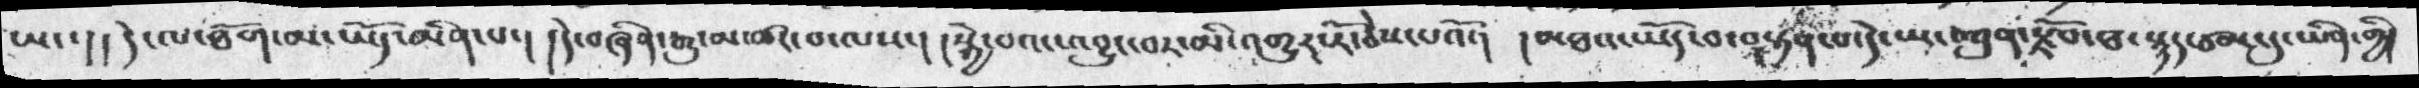ཡང་།། དེ་ལ་ཐོག་མ་ཡོད་མིན་པ་། །དེ་བཞིན་རྒྱུ་མ་ཚང་བ་ལས་། །སྐྱེ་བའང་འབྱུང་བར་མི་འགྱུར་རོ་ཅེས་པའོ་། །མཐའ་ཡོད་བ་བསྟན་པ་དེ་ཡང་ཀུན་རྫོབ་ཐ་སྙད་ཙམ་དུ་ཡིན་གྱི།
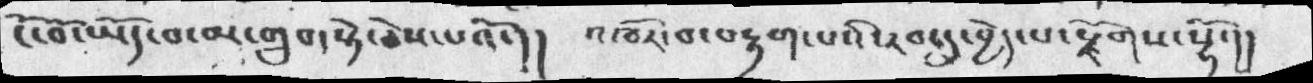ངོ་བོ་ཡོད་བ་མ་གྲུབ་སྟེ་ཅེས་པའོ་།།  འཁོར་བ་བརྟག་པའི་རབ་དུ་བྱེད་པ་རྫོགས་སྷོ་།།
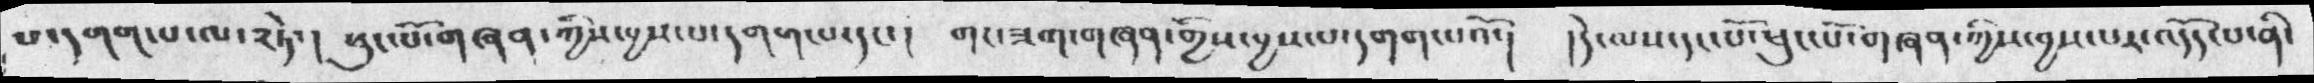པ་དགག་པ་ལ་༢ཏེ་།  ཕུང་པོ་གཞན་ཀྱིས་བྱས་པ་དགག་པ་དང་།  གང་ཟག་གཞན་གྱིས་བྱས་པ་དགག་པའོ་།  །དེ་ལས་དང་པོ་ཕུང་པོ་གཞན་ཀྱིས་བྱས་པར་འདོད་པ་ནི་
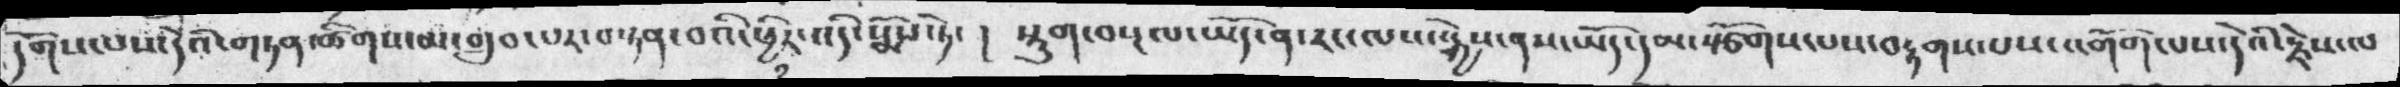དགོས་པས་དེའི་གཏན་ཚིགས་མ་གྲུབ་པར་བསྟན་བའི་ཕྱིར་འདི་སྨོས་ཏེ་ །  སྡུག་བསྔལ་ཡོད་ན་རང་ལས་སྐྱེས་ནས་ཡོད་དམ་སྩོགས་པས་བརྟགས་པས་འགོག་པས་དེའི་རྗེས་ལ
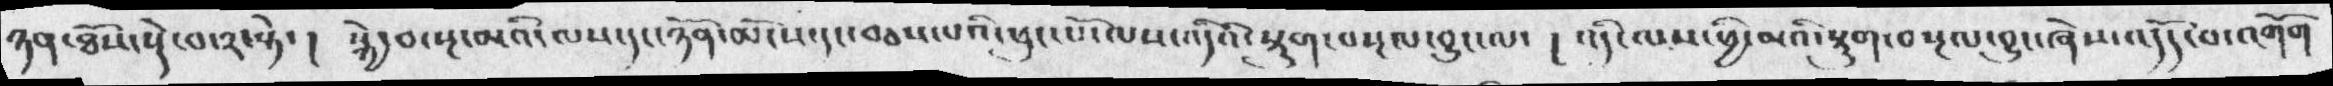ཉན་ཐོས་སྡེ་བ་༢་སྟེ་།  སྐྱེ་བ་སྔ་མའི་ལས་དང་ཉོན་མོངས་དང་བཅས་པའི་ཕུང་པོ་ལས་འདིའི་སྡུག་བསྔལ་བྱུང་ལ་ །  འདི་ལས་ཕྱི་མའི་སྡུག་བསྔལ་བྱུང་ཞེས་འདོད་པ་འགོག
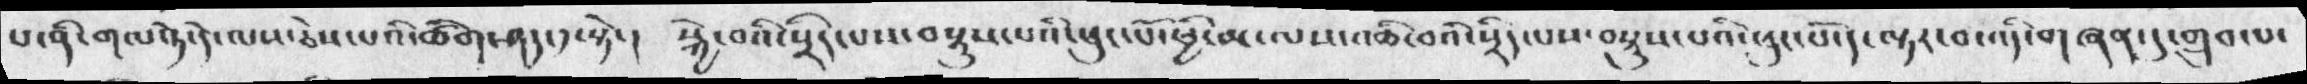པ་ནི་གལ་ཏེ་དེ་ལས་ཅེས་པའི་ཚིག་ཤད་༡་སྟེ་།  སྐྱེ་བའི་སྲིད་པས་བསྟུས་པའི་ཕུང་པོ་ཕྱི་མ་ལས་འཆི་བའི་སྲིད་པས་བསྟུས་པའི་ཕུང་པོ་ད་ལྟར་བ་འདི་གཞན་དུ་གྲུབ་པ་
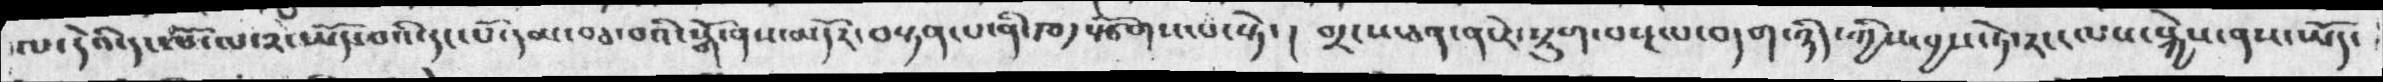ལ་དེའི་དང་པོ་ལ་༢་ཡོད་པའི་དང་པོ་དམ་བཅ་བའི་སྒོ་ནས་མདོར་་བསྟན་པ་ནི་ཁ༡སྩོགས་པ་སྟེ་།  གྲངས་ཅན་ན་རེ་སྡུག་བསྔལ་བདག་ཉིད་ཀྱིས་བྱས་ཏེ་རང་ལས་སྐྱེས་ནས་ཡོད་
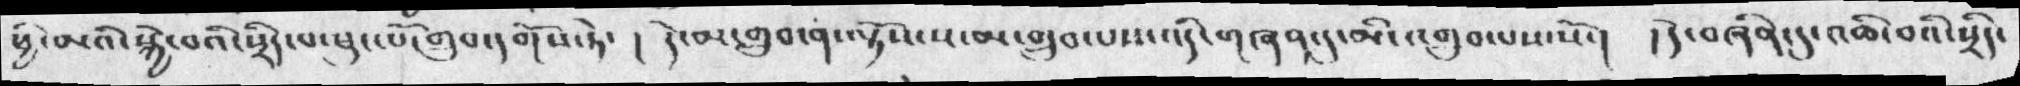ཕྱི་མའི་སྐྱེ་བའི་སྲིད་པ་ཕུང་པོ་གྲུབ་དགོས་ཏེ་ ། དེ་མ་གྲུབ་ན་ལྟོས་ས་མ་གྲུབ་པས་འདི་གཞན་དུ་མི་འགྲུབ་པས་སོ་།  ། དེ་བཞིན་དུ་འཆི་བའི་སྲིད་
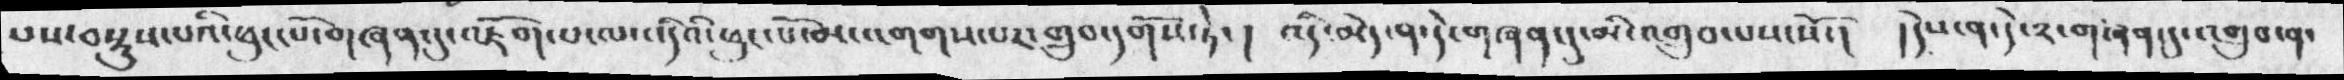པས་བསྡུས་པའི་ཕུང་པོ་གཞན་དུ་འཇོག་པ་ལ་འདིའི་ཕུང་པོ་མ་འགགས་པར་གྲུབ་དགོས་ཏེ་།  འདི་མེད་ན་དེ་གཞན་དུ་མི་འགྲུབ་པས་སོ་།  །དེས་ན་དེ་༢་གཞན་དུ་འགྲུབ་ན་
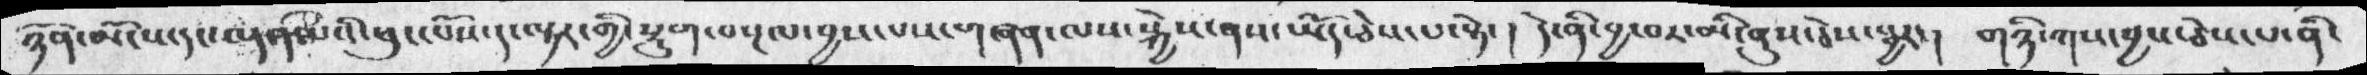ཉོན་མོངས་དང་ལྡན་པའི་ཕུང་པོས་ད་ལྟར་གྱི་སྡུག་བསྔལ་བྱས་པས་གཞན་ལས་སྐྱེས་ནས་ཡོད་ཅེས་པ་སྟེ་།  དེ་ནི་བྱ་བར་མི་ནུས་ཅེས་སྦྱར་།  གཉི་ཀས་བྱས་ཅེས་པ་ནི་
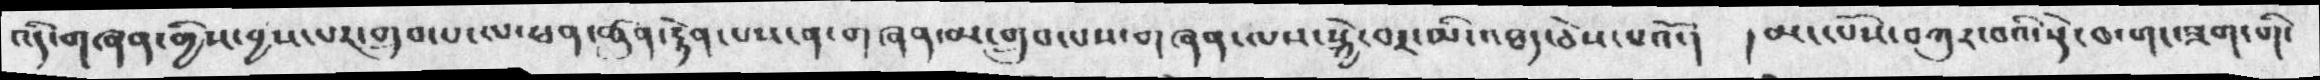འདི་གཞན་གྱིས་བྱས་པར་གྲུབ་པ་ལ་ཕན་ཚུན་རྟེན་པས་ན་གཞན་མ་གྲུབ་པས་གཞཉ་ལས་སྐྱེ་བར་མི་འཐད་ཅེས་པའོ་།  །མང་པོ་བཀུར་བའི་སྡེ་བ་གང་ཟག་གི་
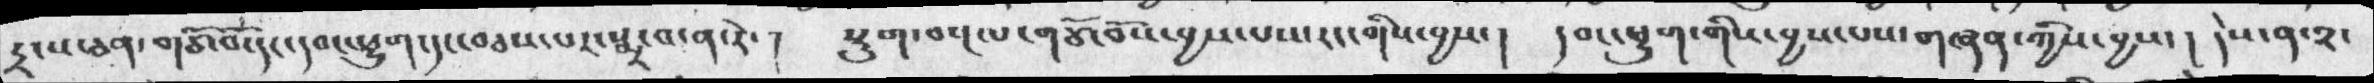དྲངས་ཅན་གཙོ་བོ་དང་དབང་ཕྱུག་དང་བཅས་པར་སྨྲ་བ་ན་རེ་།  སྡུག་བསྔལ་གཙོ་བོས་བྱས་པས་རང་གིས་བྱས་། དབང་ཕྱུག་གིས་བྱས་པས་གཞན་ཀྱིས་བྱས་།  དེས་ན་༢་
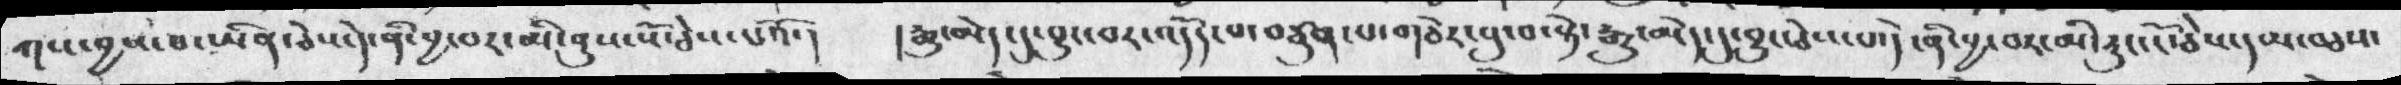ཀས་བྱས་པ་ཡིན་ཅེས་དེ་ནི་བྱ་བར་མི་ནུས་སོ་ཅེས་པའོ་།  །རྒྱུ་མེད་དུ་བྱུང་བར་འདོད་པ་བཙུན་པ་གཅེར་བུ་བ་སྟེ་རྒྱུ་མེད་དུ་བྱུང་ཅེས་པ་དེ་ནི་བྱ་བར་མི་རུང་ངོ་ཅེས་དམ་བཅས་
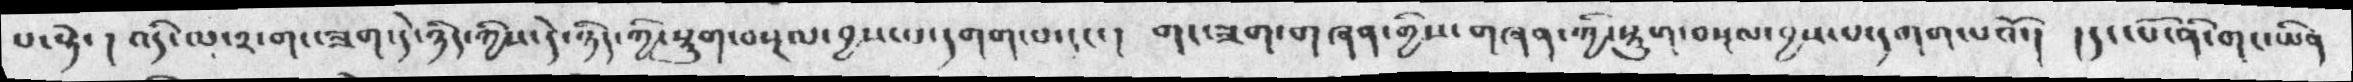པ་སྟེ་། འདི་ལ་༢་གང་ཟག་དེ་ཉིད་ཀྱིས་དེ་ཉིད་ཀྱི་སྡུག་བསྔལ་བྱས་པ་དགག་པ་དང་། གང་ཟག་གཞན་གྱིས་གཞན་ཀྱི་སྡུག་བསྔལ་བྱས་པ་དགག་པའོ་།  །དང་པོ་ནི་གང་ཡིན
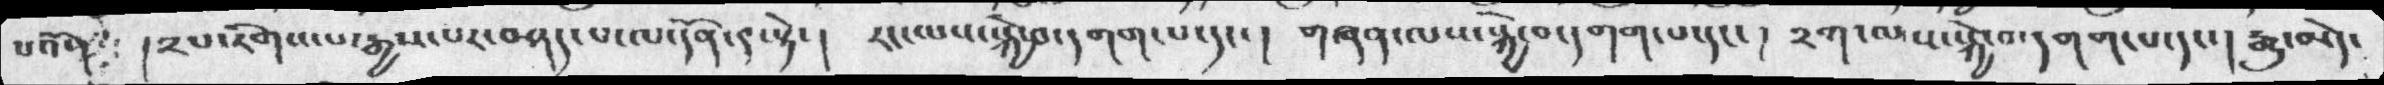པའོ་།  །༢པ་རིགས་པ་རྒྱས་པར་བཤད་པ་ལ་དོན་༩་སྟེ་།  རང་ལས་སྐྱེ་བ་དགག་པ་དང་།  གཞན་ལས་སྐྱེ་བ་དགག་པ་དང་།  ༢ག་ལས་སྐྱེ་བ་དགག་པ་དང་། རྒྱུ་མེད་
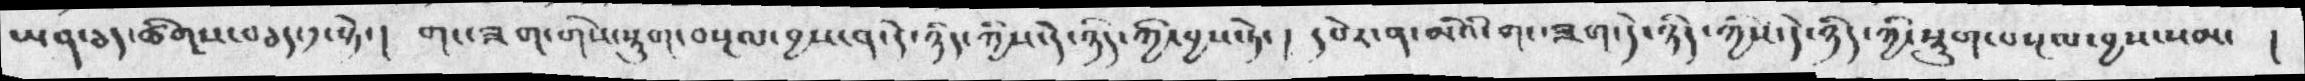ཡན་ཅད་ཚིགས་བཅད་༡་སྟེ་། གང་ཟག་གིས་སྡུག་བསྔལ་བྱས་ན་དེ་ཉིད་ཀྱིས་དེ་ཉིད་ཀྱི་བྱས་ཏེ་། དཔེར་ན་མིའི་གང་ཟག་ཀྱིས་དེ་ཉིད་ཀྱི་སདུག་བསྔལ་བྱས་སམ་ །
